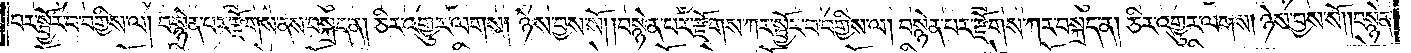པར་སྦྱོར་བ་བགྱིས་ལ། བསྙེན་པར་རྫོགས་ནས་བསྐྲད་ན། ཅིར་འགྱུར་ལགས། ཉེས་བྱས་སོ། །བསྙེན་པར་རྫོགས་ཀར་སྦྱོར་བ་བགྱིས་ལ། བསྙེན་པར་རྫོགས་ཀར་བསྐྲད་ན། ཅིར་འགྱུར་ལགས། ཉེས་བྱས་སོ། །བསྙེན་
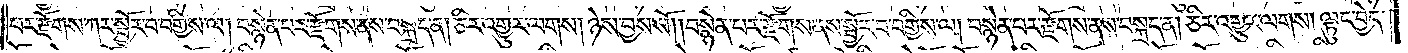པར་རྫོགས་ཀར་སྦྱོར་བ་བགྱིས་ལ། བསྙེན་པར་རྫོགས་ནས་བསྐྲད་ན། ཅིར་འགྱུར་ལགས། ཉེས་བྱས་སོ། །བསྙེན་པར་རྫོགས་ནས་སྦྱོར་བ་བགྱིས་ལ། བསྙེན་པར་རྫོགས་ནས་བསྐྲད་ན། ཅིར་འགྱུར་ལགས། ལྟུང་བྱེད་
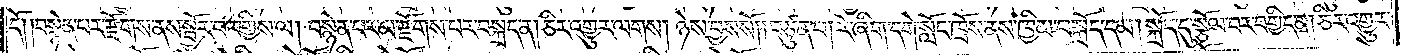དོ། །བསྙེན་པར་རྫོགས་ནས་སྦྱོར་བ་བགྱིས་ལ། བསྙེན་པར་མ་རྫོགས་པར་བསྐྲད་ན། ཅིར་འགྱུར་ལགས། ཉེས་བྱས་སོ། །བཙུན་པ། རེ་ཞིག་དགེ་སློང་ཁྲོས་ནས་ཁྱིམ་བསྐྲོད་དམ། སྐྲོད་དུ་སྩོལ་བར་བགྱིད་ན། ཅིར་འགྱུར་
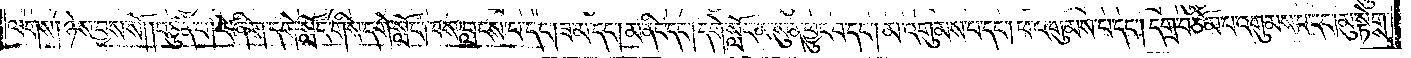ལགས། ཉེས་བྱས་སོ། །བཙུན་པ། དེ་ཞིག་དགེ་སློང་གིས་དགེ་སློང་ཁས་བླངས་པ་དང༌། ཟ་མ་དང༌། མ་ནིང་དང༌། དགེ་སློང་མ་སུན་ཕྱུང་བ་དང༌། མ་འགུམས་པ་དང༌། ཕ་འགུམས་པ་དང༌། དགྲ་བཅོམ་པ་འགུམས་པ་དང༌། མུ་སྟེགས་
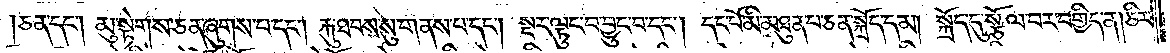ཅན་དང༌། མུ་སྟེགས་ཅན་ཞུགས་པ་དང༌། རྐུ་ཐབས་སུ་གནས་པ་དང༌། སྔར་ལྟུང་བ་བྱུང་བ་དང༌། དང་པོ་མི་མཐུན་པ་ཅན་སྐྲོད་དམ། སྐྲོད་དུ་སྩོལ་བར་བགྱིད་ན། ཅིར་
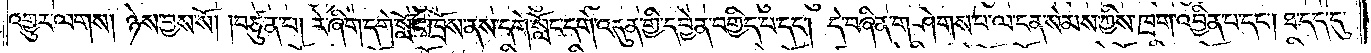འགྱུར་ལགས། ཉེས་བྱས་སོ། །བཙུན་པ། རེ་ཞིག་དགེ་སློང་ཁྲོས་ནས་དགེ་སློང་དགེ་འདུན་གྱི་དབྱེན་བགྱིད་པ་དང༌། དེ་བཞིན་གཤེགས་པ་ལ་ངན་སེམས་ཀྱིས་ཁྲག་འབྱིན་པ་དང༌། ཐ་དད་དུ་
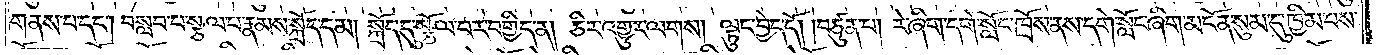གནས་པ་དང༌། བསླབ་པ་སྩལ་པ་རྣམས་སྐྲོད་དམ། སྐྲོད་དུ་སྩོལ་བར་བགྱིད་ན། ཅིར་འགྱུར་ལགས། ལྟུང་བྱེད་དོ། །བཙུན་པ། རེ་ཞིག་དགེ་སློང་ཁྲོས་ནས་དགེ་སློང་ཞིག་མངོན་སུམ་དུ་ཁྱིམ་པས་
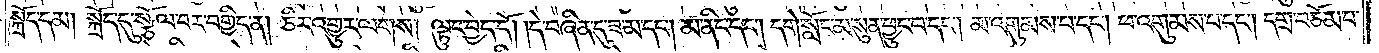སྐྲོད་དམ། སྐྲོད་དུ་སྩོལ་བར་བགྱིད་ན། ཅིར་འགྱུར་ལགས། ལྟུང་བྱེད་དོ། །དེ་བཞིན་དུ་ཟ་མ་དང༌། མ་ནིང་དང༌། དགེ་སློང་མ་སུན་ཕྱུང་བ་དང༌། མ་འགུམས་པ་དང༌། ཕ་འགུམས་པ་དང༌། དགྲ་བཅོམ་པ་
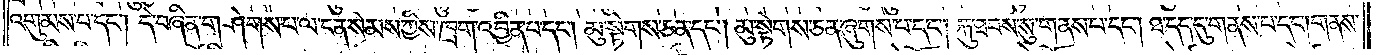འགུམས་པ་དང༌། དེ་བཞིན་གཤེགས་པ་ལ་ངན་སེམས་ཀྱིས་ཁྲག་འབྱིན་པ་དང༌། མུ་སྟེགས་ཅན་དང༌། མུ་སྟེགས་ཅན་ཞུགས་པ་དང༌། རྐུ་ཐབས་སུ་གནས་པ་དང༌། ཐ་དད་དུ་གནས་པ་དང༌། གནས་
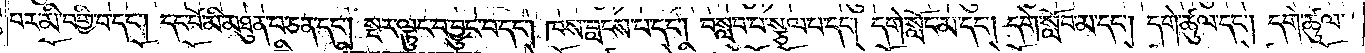པར་མི་བགྱི་བ་དང༌། དང་པོ་མི་མཐུན་པ་ཅན་དང༌། སྔར་ལྟུང་བ་བྱུང་བ་དང༌། ཁས་བླངས་པ་དང༌། བསླབ་པ་སྩལ་པ་དང༌། དགེ་སློང་མ་དང༌། དགེ་སློབ་མ་དང༌། དགེ་ཚུལ་དང༌། དགེ་ཚུལ་
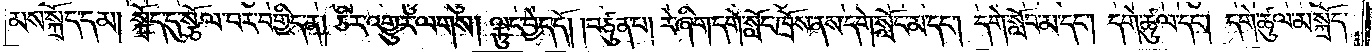མས་སྐྲོད་དམ། སྐྲོད་དུ་སྩོལ་བར་བགྱིད་ན། ཅིར་འགྱུར་ལགས། ལྟུང་བྱེད་དོ། །བཙུན་པ། རེ་ཞིག་དགེ་སློང་ཁྲོས་ནས་དགེ་སློང་མ་དང༌། དགེ་སློང་མ་དང༌། དགེ་ཚུལ་དང༌། དགེ་ཚུལ་མ་སྐྲོད་
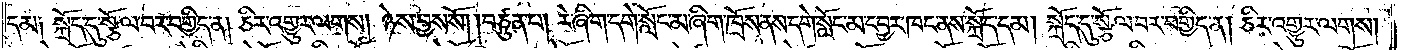དམ༑ སྐྲོད་དུ་སྩོལ་བར་བགྱིད་ན། ཅིར་འགྱུར་ལགས། ཉེས་བྱས་སོ། །བཙུན་པ། རེ་ཞིག་དགེ་སློང་མ་ཞིག་ཁྲོས་ནས་དགེ་སློང་མ་དབྱར་ཁང་ནས་སྐྲོད་དམ། སྐྲོད་དུ་སྩོལ་བར་བགྱིད་ན། ཅིར་འགྱུར་ལགས།
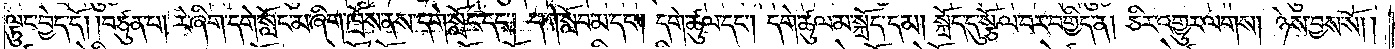ལྟུང་བྱེད་དོ། །བཙུན་པ། རེ་ཞིག་དགེ་སློང་མ་ཞིག་ཁྲོས་ནས་དགེ་སློང་དང༌། དགེ་སློབ་མ་དང༌། དགེ་ཚུལ་དང༌། དགེ་ཚུལ་མ་སྐྲོད་དམ། སྐྲོད་དུ་སྩོལ་བར་བགྱིད་ན། ཅིར་འགྱུར་ལགས། ཉེས་བྱས་སོ། །
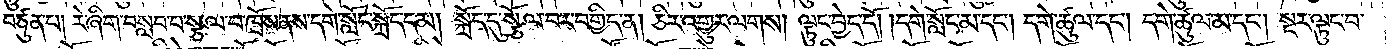བཙུན་པ། རེ་ཞིག་བསླབ་པ་སྩལ་པ་ཁྲོས་ནས་དགེ་སློང་སྐྲོད་དམ། སྐྲོད་དུ་སྩོལ་བར་བགྱིད་ན། ཅིར་འགྱུར་ལགས། ལྟུང་བྱེད་དོ། །དགེ་སློང་མ་དང༌། དགེ་ཚུལ་དང༌། དགེ་ཚུལ་མ་དང༌། སྔར་ལྟུང་བ་
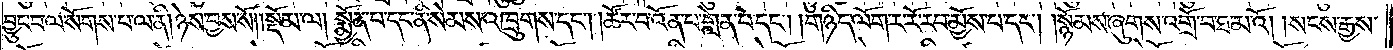བྱུང་བ་ལ་སོགས་པ་ལ་ནི། ཉེས་བྱས་སོ།    །སྡོམ་ལ། སྨྱོན་པ་དང་ནི་སེམས་འཁྲུགས་དང༌། །ཚོར་བ་འོན་པ་གླེན་པ་དང༌། །གཉིད་ལོག་ར་རོ་རབ་མྱོས་པ་དང༌། །སྙོམས་ཞུགས་འགྲོ་བ་ཐ་མའོ། །སངས་རྒྱས་
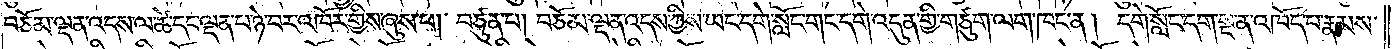བཅོམ་ལྡན་འདས་ལ་ཚེ་དང་ལྡན་པ་ཉེ་བར་འཁོར་གྱིས་ཞུས་པ། བཙུན་པ། བཅོམ་ལྡན་འདས་ཀྱིས་ཡང་དགེ་སློང་གང་དགེ་འདུན་གྱི་གཙུག་ལག་ཁང་ན། དགེ་སློང་དག་སྔ་ན་འཁོད་པ་རྣམས་
